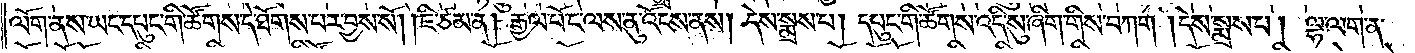ལོག་ནས་ཡང་དཔུང་གི་ཚོགས་དེ་ཐོགས་པར་བྱས་སོ། །ཇི་ཙམ་ན། རྒྱལ་པོ་ང་ལས་ནུ་འོངས་ནས། དེས་སྨྲས་པ། དཔུང་གི་ཚོགས་འདི་སུ་ཞིག་གིས་བཀག །དེས་སྨྲས་པ། ལྷ་ལག་ན་
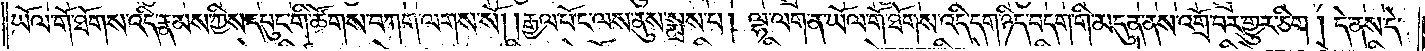ཡོལ་གོ་ཐོགས་འདི་རྣམས་ཀྱིས་དཔུང་གི་ཚོགས་བཀག་ལགས་སོ། །རྒྱལ་པོ་ང་ལས་ནུས་སྨྲས་པ། ལྷ་ལག་ན་ཡོལ་གོ་ཐོགས་འདི་དག་ཉིད་བདག་གི་མདུན་ནས་འགྲོ་བར་གྱུར་ཅིག །དེ་ནས་དེ་
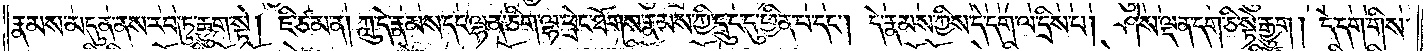རྣམས་མདུན་ནས་རབ་ཏུ་རྒྱུག་སྟེ། ཇི་ཙམ་ན། ཀླུ་དེ་རྣམས་དང་ལྷན་ཅིག་ལྷ་ཕྲེང་ཐོགས་རྣམས་ཀྱི་དྲུང་དུ་ཕྱིན་པ་དང༌། དེ་རྣམས་ཀྱིས་དེ་དག་ལ་དྲིས་པ། ཤེས་ལྡན་དག་ཅི་སྟོ་རྒྱུག །དེ་དག་གིས་
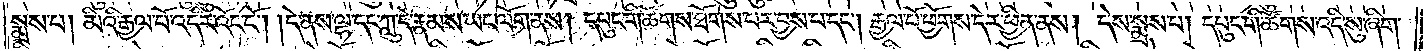སྨྲས་པ། མིའི་རྒྱལ་པོ་འདིར་འོང་ངོ༌། །དེ་ནས་ལྷ་དང་ཀླུ་དེ་རྣམས་ཡང་ལོག་ནས། དཔུང་གི་ཚེགས་ཐོགས་པར་བྱས་པ་དང༌། རྒྱལ་པོ་ཕྱོགས་དེར་ཕྱིན་ནས། དེས་སྨྲས་པ། དཔུང་གི་ཚོགས་འདི་སུ་ཞིག་
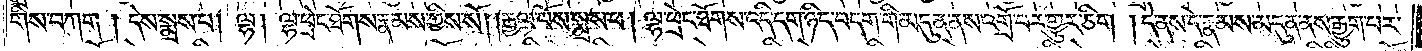གིས་བཀག །དེས་སྨྲས་པ། ལྷ། ལྷ་ཕྲེང་ཐོགས་རྣམས་ཀྱིས་སོ། །རྒྱལ་པོས་སྨྲས་པ། ལྷ་ཕྲེང་ཐོགས་འདི་དག་ཉིད་བདག་གི་མདུན་ནས་འགྲོ་བར་གྱུར་ཅིག །དེ་ནས་དེ་རྣམས་མདུན་ནས་རྒྱུག་པར་
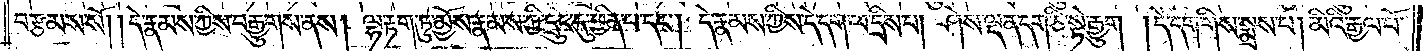བརྩམས་སོ། །དེ་རྣམས་ཀྱིས་བརྒྱུགས་ནས། ལྷ་རྟག་ཏུ་མྱོས་རྣམས་ཀྱི་དྲུང་དུ་ཕྱིན་པ་དང༌། དེ་རྣམས་ཀྱིས་དེ་དག་ལ་དྲིས་པ། ཤེས་ལྡན་དག་ཅི་སྟེ་རྒྱུག །དེ་དག་གིས་སྨྲས་པ། མིའི་རྒྱལ་པོ་
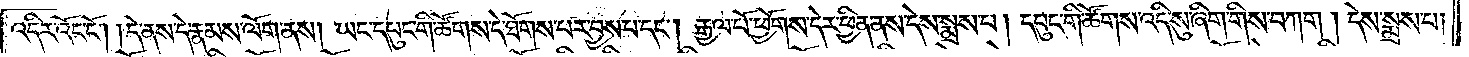འདིར་འོང་ངོ༌། །དེ་ནས་དེ་རྣམས་ལོག་ནས། ཡང་དཔུང་གི་ཚོགས་དེ་ཐོགས་པར་བྱས་པ་དང༌། རྒྱལ་པོ་ཕྱོགས་དེར་ཕྱིན་ནས་དེས་སྨྲས་པ། དཔུང་གི་ཚོགས་འདི་སུ་ཞིག་གིས་བཀག །དས་སྨྲས་པ།
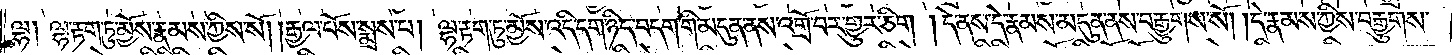ལྷ། ལྷ་རྟག་ཏུ་མྱོས་རྣམས་ཀྱིས་སོ། །རྒྱལ་པོས་སྨྲས་པ། ལྷ་རྟག་ཏུ་མྱོས་འདི་དག་ཉིད་བདག་གི་མདུན་ནས་འགྲོ་བར་གྱུར་ཅིག །དེ་ནས་དེ་རྣམས་མདུན་ནས་བརྒྱུགས་སོ། །དེ་རྣམས་ཀྱིས་བརྒྱུགས་
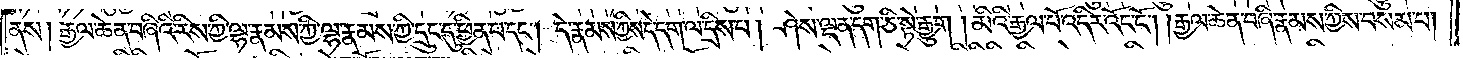ནས། རྒྱལ་ཆེན་བཞིའི་རིས་ཀྱི་ལྷ་རྣམས་ཀྱི་ལྷ་རྣམས་ཀྱི་དྲུང་དུ་ཕྱིན་པ་དང༌། དེ་རྣམས་ཀྱིས་དེ་དག་ལ་དྲིས་པ། ཤེས་ལྡན་དག་ཅི་སྟེ་རྒྱུག །མིའི་རྒྱལ་པོ་འདིར་འོང་ངོ༌། །རྒྱལ་ཆེན་བཞི་རྣམས་ཀྱིས་བསམ་པ།
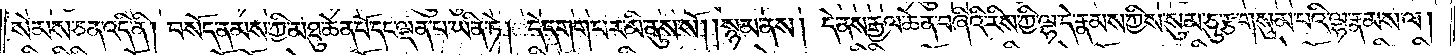སེམས་ཅན་འདི་ནི། བསོད་ནམས་ཀྱི་མཐུ་ཆེན་པོ་དང་ལྡན་པ་ཡིན་ཏེ། དེ་དགག་པར་མི་ནུས་སོ། །སྙམ་ནས། དེ་ནས་རྒྱལ་ཆེན་བཞིའི་རིས་ཀྱི་ལྷ་དེ་རྣམས་ཀྱིས་སུམ་ཅུ་རྩ་གསུམ་པའི་ལྷ་རྣམས་ལ།
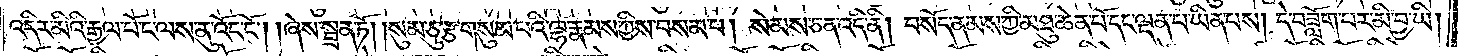འདིར་མིའི་རྒྱལ་པོ་ང་ལས་ནུ་འོང་ངོ༌། །ཞེས་སྦྲན་ཏོ། །སུམ་ཅུ་རྩ་གསུམ་པའི་ལྷ་རྣམས་ཀྱིས་བསམ་པ། སེམས་ཅན་འདི་ནི། བསོད་ནམས་ཀྱི་མཐུ་ཆེན་པོ་དང་ལྡན་པ་ཡིན་པས། དེ་བཟློག་པར་མི་བྱ་ཡི།
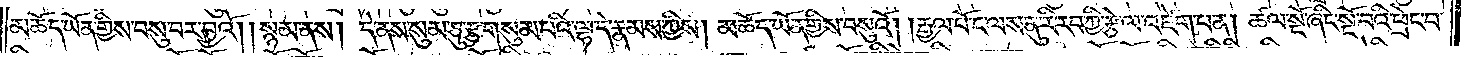མཆོད་ཡོན་གྱིས་བསུ་བར་བྱའོ། །སྙམ་ནས། དེ་ནས་སུམ་ཅུ་རྩ་གསུམ་པའི་ལྷ་དེ་རྣམས་ཀྱིས། མཆོད་ཡོན་གྱིས་བསུའོ། །རྒྱལ་པོ་ང་ལས་ནུ་རི་རབ་ཀྱི་རྩེ་ལ་འཛེག་པ་ན། ཚལ་སྔོ་ཞིང་སྔོ་བའི་ཕྲེང་བ་
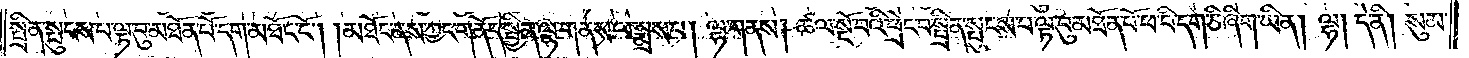སྤྲིན་སྤུངས་པ་ལྟ་བུ་མཐོན་པོ་དག་མཐོང་ངོ༌། །མཐོང་ནས་ཀྱང་གནོད་སྦྱིན་ལྷ་གནས་ལ་སྨྲས་པ། ལྷ་གནས། ཚལ་སྔོ་བའི་ཕྲེང་བ་སྤྲིན་སྤུངས་པ་ལྟ་བུ་མཐོན་པོ་ཕ་བི་དག་ཅི་ཞིག་ཡིན། ལྷ། དེ་ནི། སུམ་
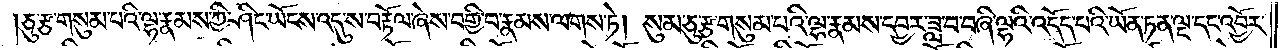།ཅུ་རྩ་གསུམ་པའི་ལྷ་རྣམས་ཀྱི་ཤིང་ཡོངས་འདུ་ས་བརྟོལ་ཞེས་བགྱི་བ་རྣམས་ལགས་ཏེ། སུམ་ཅུ་རྩ་གསུམ་པའི་ལྷ་རྣམས་དབྱར་ཟླ་བ་བཞི་ལྷའི་འདོད་པའི་ཡོན་ཏན་ལྔ་དང་འབྱོར་
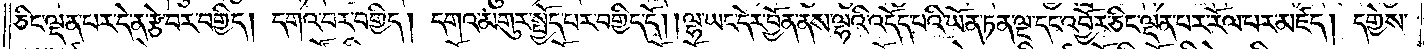ཅིང་ལྡན་པར་དེ་ན་རྩེ་བར་བགྱིད། དགའ་བར་བགྱིད། དགའ་མགུར་སྤྱོད་པར་བགྱིད་དོ། །ལྷ་ཡང་དེར་བྱོན་ནས་ལྷའི་འདོད་པའི་ཡོན་ཏན་ལྔ་དང་འབྱོར་ཅིང་ལྡན་པར་རོལ་པར་མཛད། དགྱེས་
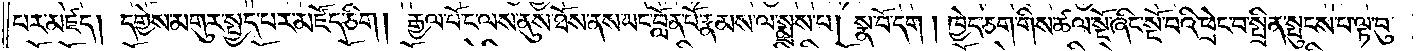པར་མཛད། དགྱེས་མགུར་སྤྱད་པར་མཛོད་ཅིག །རྒྱལ་པོ་ང་ལས་ནུས་ཐོས་ནས་ཡང་བློན་པོ་རྣམས་ལ་སྨྲས་པ། སྣ་བོ་དག །ཁྱེད་ཅག་གིས་ཚལ་སྔོ་ཞིང་སྔོ་བའི་ཕྲེང་བ་སྤྲིན་སྤུངས་པ་ལྟ་བུ་
